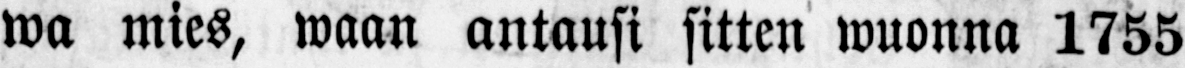wa mies, waan antausi sitten wuonna 1755
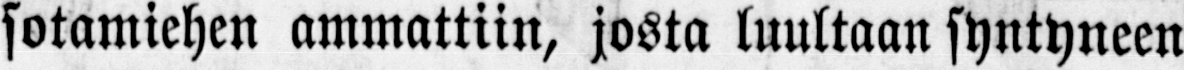sotamiehen ammattiin, josta luultaan syntyneen
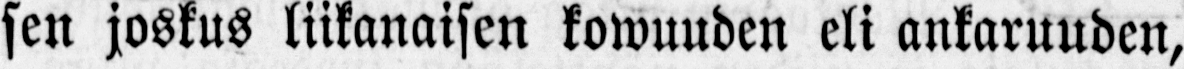sen joskus liikanaisen kowuuden eli ankaruuden,
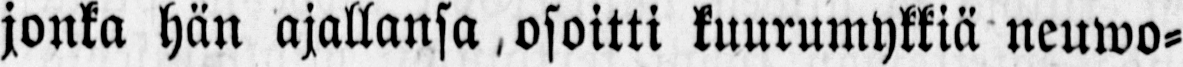jonka hän ajallansa ,osoitti kuurumykkiä neuwo-
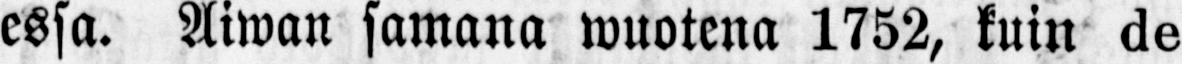essa. Aiwan samana wuotena 1752, kuin de
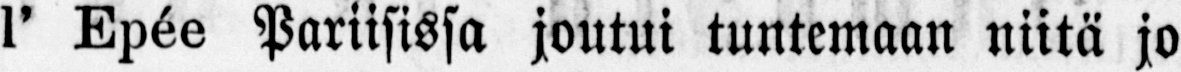l'Epée Pariisissa joutui tuntemaan niitä jo
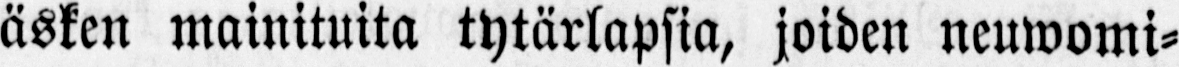äsken mainituita tytärlapsia, joiden neuwomi-
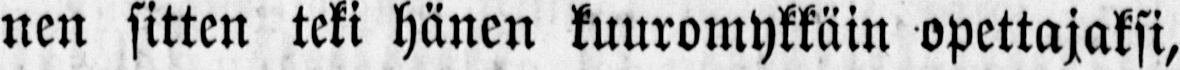nen sitten teki hänen kuuromykkäin opettajaksi,
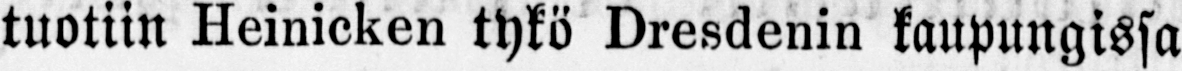tuotiin Heinicken tykö Dresdenin kaupungissa
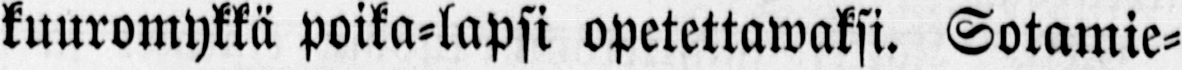kuuromykkä poika-lapsi opetettawaksi. Sotamie-
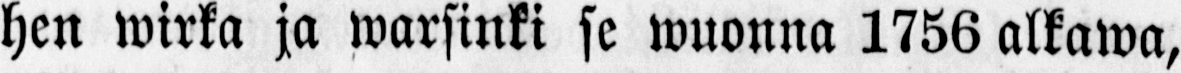hen wirka ja warsinki se wuonna 1756 alkawa,
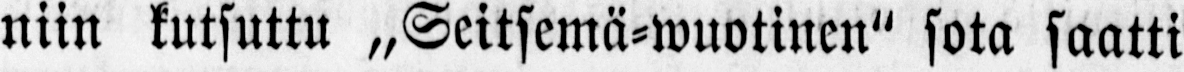niin kutsuttu „Seitsemä-wuotinen" sota saatti
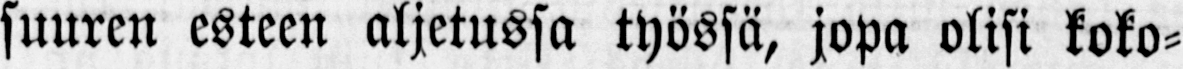suuren esteen aljetussa työssä, jopa olisi koko-
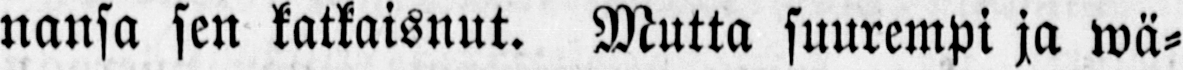nansa sen katkaisnut. Mutta suurempi ja wä-
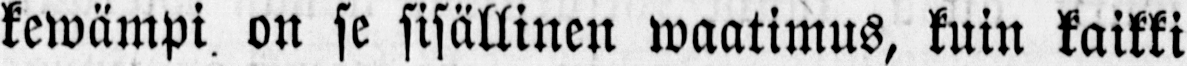kewämpi, on se sisällinen waatimus, kuin kaikki
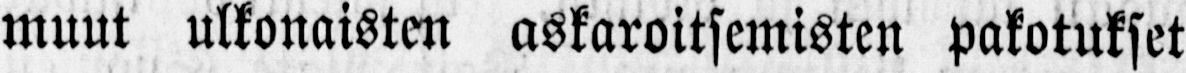muut ulkonaisten askaroitsemisten pakotukset
